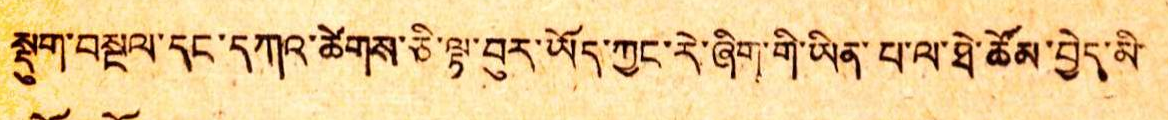སྡུག་བསྔལ་དང་དཀའ་ཚེགས་ཅི་ལྟ་བུར་ཡོད་ཀྱང་རེ་ཞིག་གི་ཡིན་པ་ལ་ཐེ་ཚོམ་བྱེད་མི་
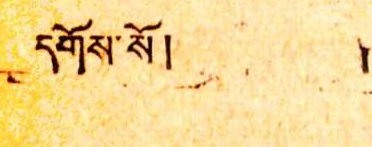དགོས་སོ། །
